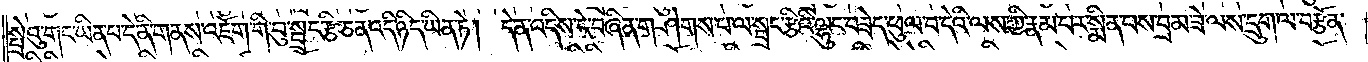སྤྲེའུ་གང་ཡིན་པ་དེ་ནི་གནས་འཇོག་གི་བུ་སྦྲང་རྩི་ཅན་འདི་ཉིད་ཡིན་ཏེ། དེ་ན་འདིས་དེ་བཞིན་གཤེགས་པ་ལ་སྦྲང་རྩིའི་ལྷུང་བཟེད་ཕུལ་བ་དེའི་ལས་ཀྱི་རྣམ་པར་སྨིན་པས་བྲམ་ཟེ་ལས་དྲུག་ལ་བརྩོན་
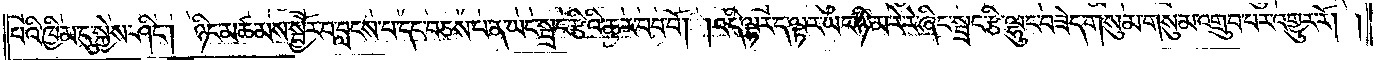པའི་ཁྱིམ་དུ་སྐྱེས་ཤིང༌། ཉིང་མཚམས་སྦྱོར་བ་བླངས་པ་དང་བཙས་པ་ན་ཡང་སྦྲང་རྩིའི་ཆར་བབ་བོ། །འདི་ལྟར་ད་ལྟར་ཡང་ཉི་མ་རེ་རེ་ཞིང་སྦྲང་རྩི་ལྷུང་བཟེད་གསུམ་གསུམ་འགྲུབ་པར་འགྱུར་རོ། །
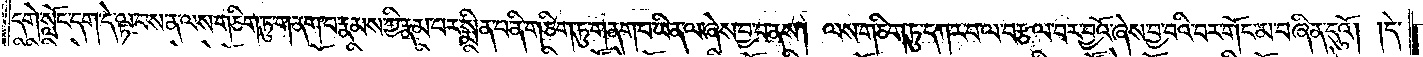དགེ་སློང་དག་དེ་ལྟ་བས་ན་ལས་གཅིག་ཏུ་གནག་པ་རྣམས་ཀྱི་རྣམ་པར་སྨིན་པ་ནི་གཅིག་ཏུ་གནག་པ་ཡིན་ལ་ཞེས་བྱ་བ་ནས། ལས་གཅིག་ཏུ་དཀར་བ་ལ་བརྩལ་བར་བྱའོ་ཞེས་བྱ་བའི་བར་གོང་མ་བཞིན་དུའོ། །དེ་
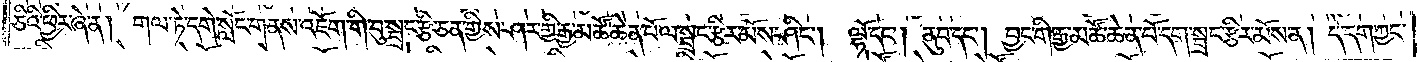ཅིའི་ཕྱིར་ཞེ་ན། གལ་ཏེ་དགེ་སློང་གནས་འཇོག་གི་བུ་སྦྲང་རྩི་ཅན་གྱིས་ཤར་གྱི་རྒྱ་མཚོ་ཆེན་པོ་ལ་སྦྲང་རྩིར་མོས་ཤིང༌། ལྷོ་དང༌། ནུབ་དང༌། བྱང་གི་རྒྱ་མཚོ་ཆེན་པོ་དག་སྦྲང་རྩིར་མོས་ན། དེ་དག་ཀྱང་
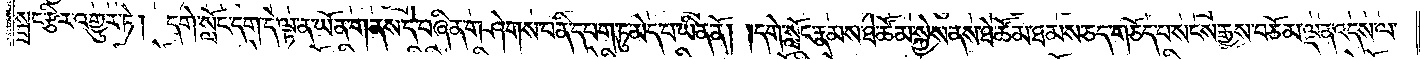སྦྲང་རྩིར་འགྱུར་ཏེ། དགེ་སློང་དག་དེ་ལྟ་ན་ཡོན་གནས་དེ་བཞིན་གཤེགས་པ་ནི་དཔག་ཏུ་མེད་པ་ཡིན་ནོ། །དགེ་སློང་རྣམས་ཐེ་ཚོམ་སྐྱེས་ནས་ཐེ་ཚོམ་ཐམས་ཅད་གཅོད་པ་སངས་རྒྱས་བཅོམ་ལྡན་འདས་ལ་
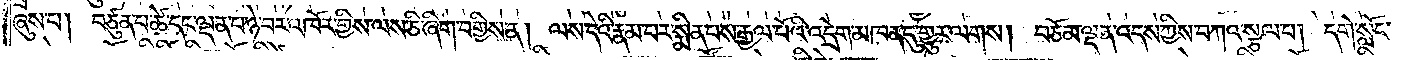ཞུས་པ། བཙུན་པ་ཚེ་དང་ལྡན་པ་ཉེ་བར་འཁོར་གྱིས་ལས་ཅི་ཞིག་བགྱིས་ན། ལས་དེའི་རྣམ་པར་སྨིན་པས་རྒྱལ་པོའི་འདྲེག་མཁན་དུ་གྱུར་ལགས། བཅོམ་ལྡན་འདས་ཀྱིས་བཀའ་སྩལ་པ། དགེ་སློང་
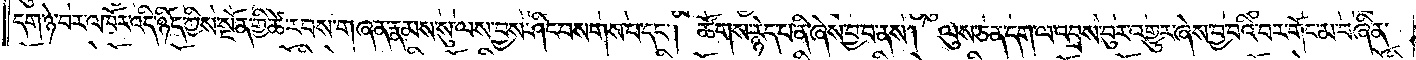དག་ཉེ་བར་འཁོར་འདི་ཉིད་ཀྱིས་སྔོན་གྱི་ཚེ་རབས་གཞན་རྣམས་སུ་ལས་བྱས་ཤིང་བསགས་པ་དང༌། ཚོགས་རྙེད་པ་ནི་ཞེས་བྱ་བ་ནས། ལུས་ཅན་དག་ལ་འབྲས་བུར་འགྱུར་ཞེས་བྱ་བའི་བར་གོང་མ་བཞིན་
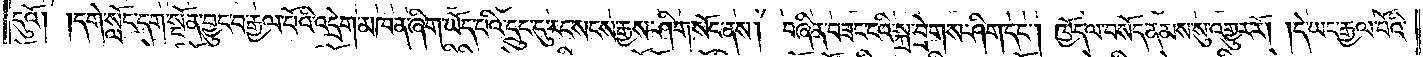དུའོ། །དགེ་སློང་དག་སྔོན་བྱུང་བ་རྒྱལ་པོའི་འདྲེག་མཁན་ཞིག་ཡོད་པའི་དྲུང་དུ་རང་སངས་རྒྱས་ཤིག་སོང་ནས། བཞིན་བཟང་ངའི་སྐྲ་བྲེགས་ཤིག་དང༌། ཁྱོད་ལ་བསོད་ནམས་སུ་འགྱུར་རོ། །དེ་ཡང་རྒྱལ་པོའི་
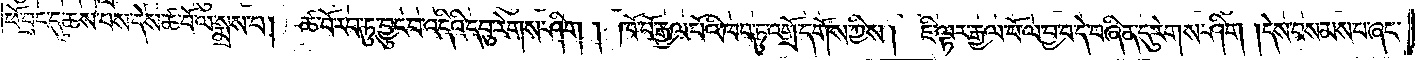ཕོ་བྲང་དུ་ཆས་པས་དེས་ཚ་བོ་ལ་སྨྲས་པ། ཚ་བོ་རབ་ཏུ་བྱུང་བ་འདིའི་དབུ་རེགས་ཤིག །ཁོ་བོ་རྒྱལ་པོའི་ཁབ་ཏུ་འགྲོ་དགོས་ཀྱིས། ཇི་ལྟར་རྒྱལ་པོ་ལ་བྱ་བ་དེ་བཞིན་དུ་རེགས་ཤིག །དེས་བསམས་པ་ཞང་
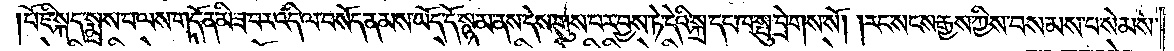པོ་ཇི་སྐད་སྨྲས་པ་ལས་གདོན་མི་ཟ་བར་འདི་ལ་བསོད་ནམས་ཡོད་དོ་སྙམ་ནས་དེས་གུས་པར་བྱས་ཏེ་དེའི་སྐྲ་དང་ཁ་སྤུ་བྲེགས་སོ། །རང་སངས་རྒྱས་ཀྱིས་བསམས་པ་སེམས་
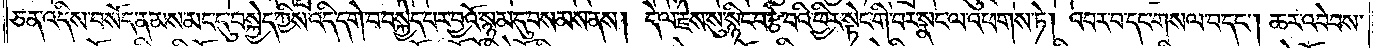ཅན་འདིས་བསོད་ནམས་མང་དུ་བསྐྱེད་ཀྱིས་འདི་དགེ་བ་བསྐྱེད་པར་བྱའོ་སྙམ་དུ་བསམས་ནས། དེ་ལ་རྗེས་སུ་སྙིང་བརྩེ་བའི་ཕྱིར་སྟེང་གི་བར་སྣང་ལ་འཕགས་ཏེ། འབར་བ་དང་གསལ་བ་དང༌། ཆར་འབེབས་
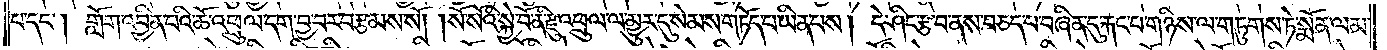པ་དང༌། གློག་འབྱིན་པའི་ཆོ་འཕྲུལ་དག་བྱ་བར་བརྩམས་སོ། །སོ་སོའི་སྐྱེ་བོ་ནི་རྫུ་འཕྲུལ་ལ་མྱུར་དུ་སེམས་གཏོད་པ་ཡིན་པས། དེ་ཤིང་རྩ་བ་ནས་བཅད་པ་བཞིན་དུ་རྐང་པ་གཉིས་ལ་གཏུགས་ཏེ་སྨོན་ལམ་
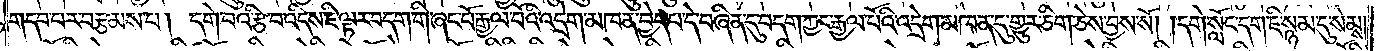གདབ་པར་བརྩམས་པ། དགེ་བའི་རྩི་བ་འདིས་ཇི་ལྟར་བདག་གི་ཞང་པོ་རྒྱལ་པོའི་འདྲེག་མཁན་བྱེད་པ་དེ་བཞིན་དུ་བདག་ཀྱང་རྒྱལ་པོའི་འདྲེག་མཁན་དུ་གྱུར་ཅིག་ཅེས་བྱས་སོ། །དགེ་སློང་དག་ཇི་སྙམ་དུ་སེམས་
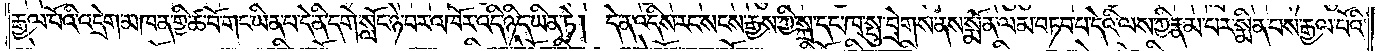རྒྱལ་པོའི་འདྲེག་མཁན་གྱི་ཚ་བོ་གང་ཡིན་པ་དེ་ནི་དགེ་སློང་ཉེ་བར་འཁོར་འདི་ཉིད་ཡིན་ཏེ། དེ་ན་འདིས་རང་སངས་རྒྱས་ཀྱི་སྐྲ་དང་ཁ་སྤུ་བྲེགས་ནས་སྨོན་ལམ་བཏབ་པ་དེའི་ལས་ཀྱི་རྣམ་པར་སྨིན་པས་རྒྱལ་པོའི་
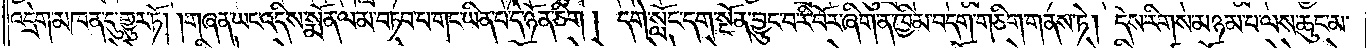འདྲེག་མཁན་དུ་གྱུར་ཏོ། །གཞན་ཡང་འདིས་སྨོན་ལམ་བཏབ་པ་གང་ཡིན་པ་དེ་ཉོན་ཅིག །དགེ་སློང་དག་སྔོན་བྱུང་བ་རི་བོར་ཞིག་ན་ཁྱིམ་བདག་གཅིག་གནས་ཏེ། དེས་རིགས་མཉམ་པ་ལས་ཆུང་མ་
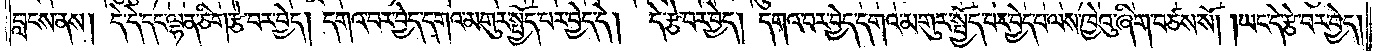བླངས་ནས། དེ་དེ་དང་ལྷན་ཅིག་རྩེ་བར་བྱེད། དགའ་བར་བྱེད་དགའ་མགུར་སྤྱོད་པར་བྱེད་དེ། དེ་རྩེ་བར་བྱེད། དགའ་བར་བྱེད་དགའ་མགུར་སྤྱོད་པར་བྱེད་པ་ལས་ཁྱེའུ་ཞིག་བཙས་སོ། །ཡང་དེ་རྩེ་བར་བྱེད།
